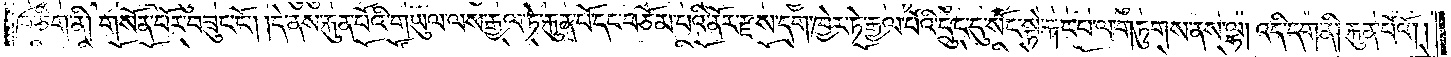ཁ་ཅིག་ནི། གསོན་པོར་བཟུང་ངོ༌། །དེ་ནས་རྐུན་པོའི་གཡུལ་ལས་རྒྱལ་ཏེ་རྐུན་པོ་དང་བཅོམ་པའི་ནོར་རྫས་དག་ཁྱེར་ཏེ་རྒྱལ་པོའི་དྲུང་དུ་སོང་སྟེ་རྐང་པ་ལ་གཏུགས་ནས་ལྷ། འདི་དག་ནི། རྐུན་པོའོ། །
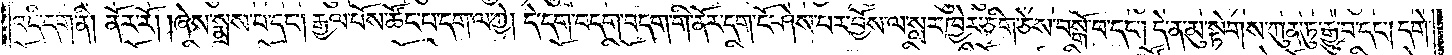འདི་དག་ནི། ནོར་རོ། །ཞེས་སྨྲས་པ་དང༌། རྒྱལ་པོས་ཚོང་པ་དག་ལ་ཀྱེ། དེ་དག་བདག་བདག་གི་ནོར་དག་ངོ་ཤེས་པར་བྱོས་ལ་སླར་ཁྱེར་ཅིག་ཅེས་བསྒོ་བ་དང༌། དེ་ན་མུ་སྟེགས་ཀུན་ཏུ་རྒྱུ་བ་དང༌། དགེ་
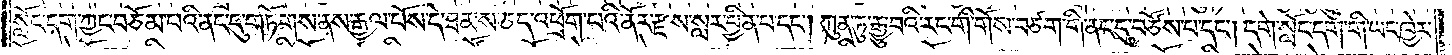སློང་དག་ཀྱང་བཅོམ་པའི་ནང་དུ་གཏོགས་ནས་རྒྱལ་པོས་དེ་ཐམས་ཅད་འཕྲོག་པའི་ནོར་རྫས་སླར་བྱིན་པ་དང༌། ཀུན་ཏུ་རྒྱུ་བའི་རང་གི་གོས་བཙག་གི་ནང་དུ་བཙོས་པ་དང༌། དགེ་སློང་དག་གི་ཡང་ཁྱེར་
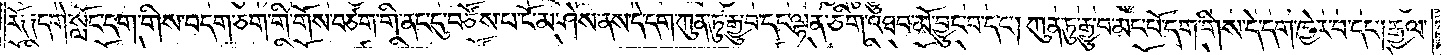རོ༑ ༑དགེ་སློང་དག་གིས་བདག་ཅག་གི་གོས་བཙག་གི་ནང་དུ་བཙོས་པ་ངོ་མ་ཤེས་ནས་དེ་དག་ཀུན་ཏུ་རྒྱུ་བ་དང་ལྷན་ཅིག་འཐབ་མོ་བྱུང་བ་དང༌། ཀུན་ཏུ་རྒྱུ་བ་མང་པོ་དག་གིས་དེ་དག་ཁྱེར་བ་དང༌། རྒྱལ་
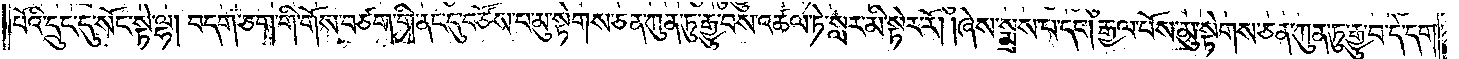པོའི་དྲུང་དུ་སོང་སྟེ་ལྷ། བདག་ཅག་གི་གོས་བཙག་གི་ནང་དུ་བཙོས་པ་མུ་སྟེགས་ཅན་ཀུན་ཏུ་རྒྱུ་བས་འཚལ་ཏེ་སླར་མི་སྟེར་རོ། །ཞེས་སྨྲས་པ་དང༌། རྒྱལ་པོས་མུ་སྟེགས་ཅན་ཀུན་ཏུ་རྒྱུ་བ་དེ་དག་
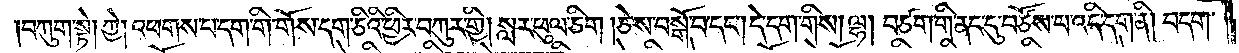བཀུག་སྟེ། ཀྱེ། འཕགས་པ་དག་གི་གོས་དག་ཅིའི་ཕྱིར་བཀུར་གྱི། སླར་ཕུལ་ཅིག །ཅེས་བསྒོ་བ་དང༌། དེ་དག་གིས། ལྷ། བཙག་གི་ནང་དུ་བཙོས་པ་འདི་དག་ནི། བདག་
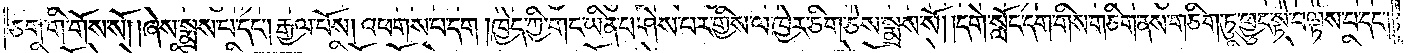ཅག་གི་གོས་སོ། །ཞེས་སྨྲས་པ་དང༌། རྒྱལ་པོས། འཕགས་པ་དག །ཁྱེད་ཀྱི་གང་ཡིན་པ་ཤེས་པར་གྱིས་ལ་ཁྱེར་ཅིག་ཅེས་སྨྲས་སོ། །དགེ་སློང་དག་གིས་གཅིག་ནས་གཅིག་ཏུ་ཕྱུང་སྟེ་བལྟས་པ་དང༌།
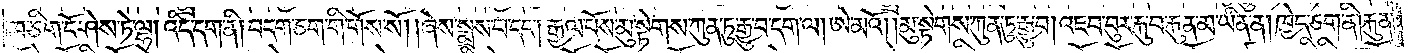ཁ་ཅིག་ངོ་ཤེས་ཏེ་ལྷ། འདི་དག་ནི། བདག་ཅག་གི་གོས་སོ། །ཞེས་སྨྲས་པ་དང༌། རྒྱལ་པོས་མུ་སྟེགས་ཀུན་ཏུ་རྒྱུ་བ་དག་ལ། ཨེ་མའོ། །མུ་སྟེགས་ཀུན་ཏུ་རྒྱུ་བ། འཇབ་བུར་རྐུ་བ་རྐུན་མ་ཡིན་ན། ཁྱེད་ཅག་ནི། རྐུན་
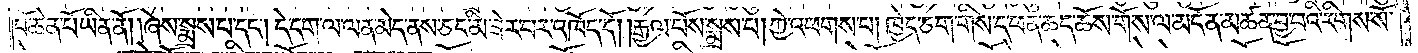པོ་ཆེན་པོ་ཡིན་ནོ། །ཞེས་སྨྲས་པ་དང༌། དེ་དག་ལ་ལན་མེད་ནས་ཅང་མི་ཟེར་བར་འཁོད་དོ། །རྒྱལ་པོས་སྨྲས་པ། ཀྱེ་འཕགས་པ། ཁྱེད་ཅག་གིས་ད་ཕན་ཆད་ཆོས་གོས་ལ་མངོན་མཚན་བྱ་བའི་རིགས་སོ་
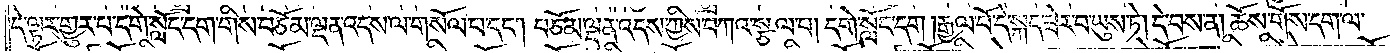དེ་ལྟར་གྱུར་པ་དགེ་སློང་དག་གིས་བཅོམ་ལྡན་འདས་ལ་གསོལ་པ་དང༌། བཅོམ་ལྡན་འདས་ཀྱིས་བཀའ་སྩལ་པ། དགེ་སློང་དག །རྒྱལ་པོ་དེ་སྐད་ཟེར་བ་ཡུས་ཏེ། དེ་བས་ན། ཆོས་གོས་དག་ལ་
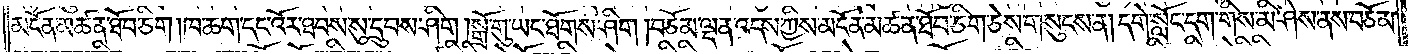མངོན་མཚན་ཐོབ་ཅིག །ཁ་ཆག་དང་འོར་ཐབས་སུ་དྲུབས་ཤིག །སྒྲོ་གུ་ཡང་ཐོགས་ཤིག །བཅོམ་ལྡན་འདས་ཀྱིས་མངོན་མཚན་ཐོབ་ཅིག་ཅེས་གསུངས་ན། དགེ་སློང་དག་གིས་མི་ཤེས་ནས་བཅོམ་
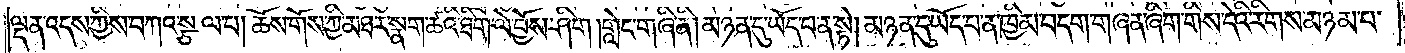ལྡན་འདས་ཀྱིས་བཀའ་སྩལ་པ། ཆོས་གོས་ཀྱི་མཐར་སྣག་ཚའི་ཐིག་ལེ་བྱོས་ཤིག །གླེང་གཞི་ནི། མཉན་དུ་ཡོད་པ་ན་སྟེ། མཉན་དུ་ཡོད་པ་ན་ཁྱིམ་བདག་གཞན་ཞིག་གིས་དེའི་རིགས་མཉམ་པ་
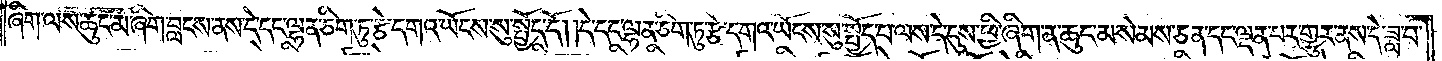ཞིག་ལས་ཆུང་མ་ཞིག་བླངས་ནས་དེ་དང་ལྷན་ཅིག་ཏུ་རྩེ་དགའ་ཡོངས་སུ་སྤྱོད་དོ། །དེ་དང་ལྷན་ཅིག་ཏུ་རྩེ་དགའ་ཡོངས་སུ་སྤྱོད་པ་ལས་དེ་དུས་ཕྱི་ཞིག་ན་ཆུང་མ་སེམས་ཅན་དང་ལྡན་པར་གྱུར་ནས་དེ་ཟླ་བ་
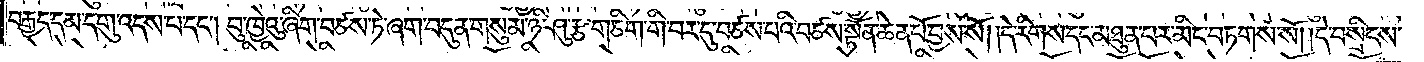བརྒྱད་དམ་དགུ་འདས་པ་དང༌། བུ་ཁྱེའུ་ཞིག་བཙས་ཏེ་ཞག་བདུན་གསུམ་ཉི་ཤུ་རྩ་གཅིག་གི་བར་དུ་བཙས་པའི་བཙས་སྟོན་ཆེན་པོ་བྱས་སོ། །དེ་རིགས་དང་མཐུན་པར་མིང་བཏགས་སོ། །དེ་བསྲིངས་
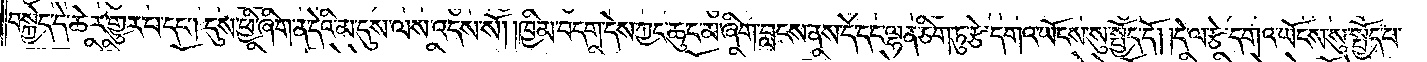བསྐྱེད་དེ་ཆེར་གྱུར་པ་དང༌། དུས་ཕྱི་ཞིག་ན་དེའི་མ་དུས་ལས་འདས་སོ། །ཁྱིམ་བདག་དེས་ཀྱང་ཆུང་མ་ཞིག་བླངས་ནས་དེ་དང་ལྷན་ཅིག་ཏུ་རྩེ་དགའ་ཡོངས་སུ་སྤྱོད་དོ། །དེ་ལ་རྩེ་དགའ་ཡོངས་སུ་སྤྱོད་པ་
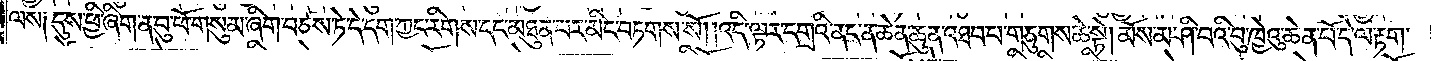ལས༑ དུས་ཕྱི་ཞིག་ན་བུ་ཕོ་གསུམ་ཞིག་བཙས་ཏེ་དེ་དག་ཀྱང་རིགས་དང་མཐུན་པར་མིང་བཏགས་སོ། །འདི་ལྟར་དགྲའི་ནང་ན་ཆེན་ཆུང་འཐབ་པ་གཅུགས་ཆེ་སྟེ། མོས་མ་ཤི་བའི་བུ་ཁྱེའུ་ཆེན་པོ་དེ་ལ་རྟག་
